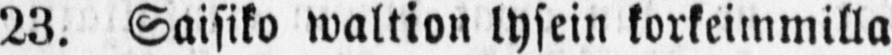23. Saisiko waltion lysein korkeimmilla
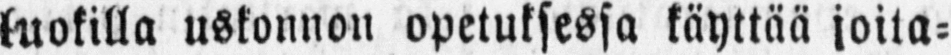luokilla uskonnon opetuksessa käyttää joita-
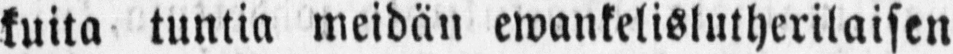kuita tuntia meidän ewankelislutherilaisen
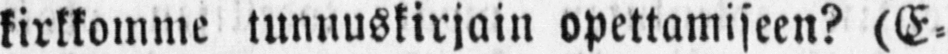kirkkomme tunnuskirjain opettamiseen? (E-
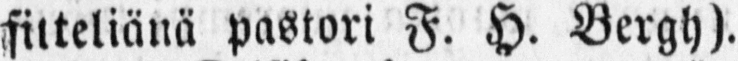sitteliänä pastori F. H. Bergh).
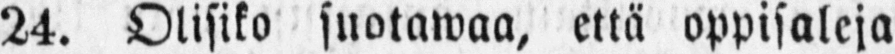24. Olisiko suotawaa, että oppisaleja
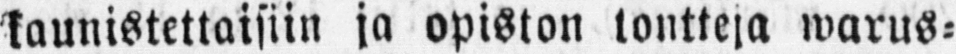kaunistettaisiin ja opiston tontteja warus-
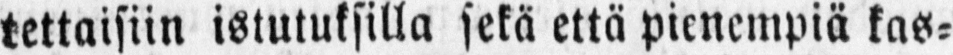tettaisiin istutuksilla sekä että pienempiä kas-
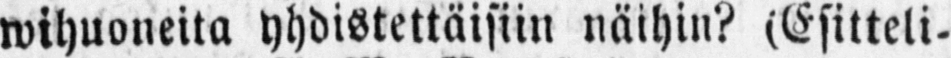wihuoneita yhdistettäisiin näihin? (Esitteli-
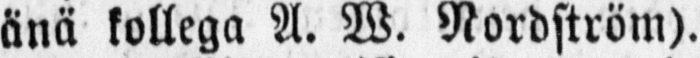änä kollega A. W. Nordström).
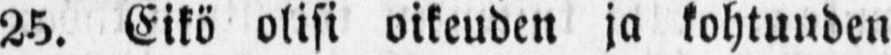25. Eikö olisi oikeuden ja kohtuuden
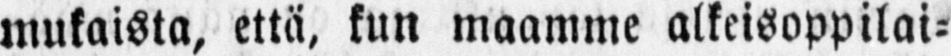mukaista, että, kun maamme alkeisoppilai-
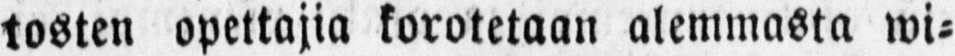tosten opettajia korotetaan alemmasta wi-
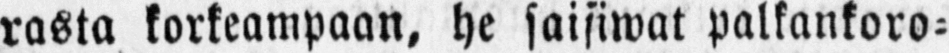rasta korkeampaan, he saisiwat palkankoro-
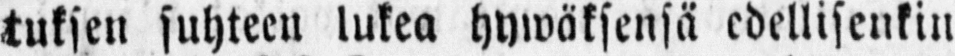tuksen suhteen lukea hywäksensä edellisenkin
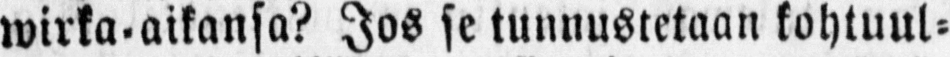wirka-aikansa? Jos se tunnustetaan kohtuul-
